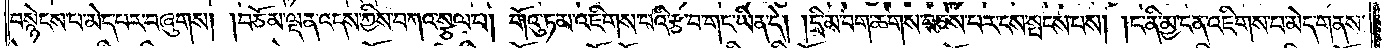བསྙེངས་པ་མེད་པར་བཞུགས། །བཅོམ་ལྡན་འདས་ཀྱིས་བཀའ་སྩལ་པ། གོའུ་ཏམ་འཇིགས་པའི་རྩ་བ་གང་ཡིན་དེ། དྲི་མ་བག་ཆགས་བཅས་པར་ངས་སྤངས་པས། ང་ནི་མྱ་ངན་འཇིགས་པ་མེད་གནས་
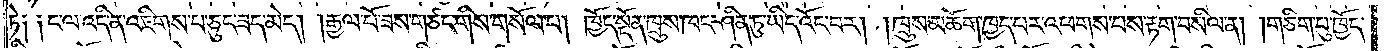ཏེ༑ ༑ང་ལ་འདི་ན་འཇིགས་པ་ཅུང་ཟད་མེད། །རྒྱལ་པོ་ཟས་གཙང་གིས་གསོལ་བ། ཁྱོད་སྔོན་ཁྲུས་ཁང་ཤིན་ཏུ་ཡིད་འོང་བར། །ཁྲུས་མཆོག་ཁྱད་པར་འཕགས་པས་རྟག་བསིལ་ན། གཅིག་པུ་ཁྱོད་
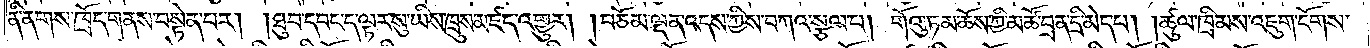ནི་ནགས་ཁྲོད་གནས་བསྟེན་པར། །ཐུབ་དབང་ད་ལྟར་སུ་ཡིས་ཁྲུས་མཛད་འགྱུར། །བཅོམ་ལྡན་འདས་ཀྱིས་བཀའ་སྩལ་པ། གོའུ་ཏམ་ཆོས་ཀྱི་མཚོ་བྲན་དྲི་མེད་པ། །ཚུལ་ཁྲིམས་འཇུག་ངོགས་
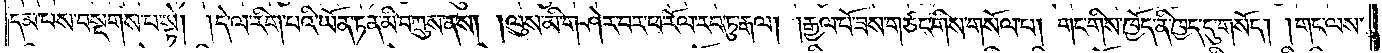དམ་པས་བསྔགས་པ་སྟེ། དེ་ལ་རིག་པའི་ཡོན་ཏན་མི་བཀྲུས་ནས། །ལུས་མི་གཤེར་བར་ཕ་རོལ་རབ་ཏུ་རྒལ། །རྒྱལ་པོ་ཟས་གཙང་གིས་གསོལ་བ། གང་གིས་ཁྱོད་ནི་ཁྱད་དུ་གསོད། །གང་ལས་
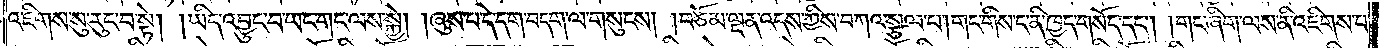འཇིགས་སུ་རུང་བ་སྟེ། །ཡིད་འབྱུང་བ་ཡང་གང་ལས་སྐྱེ། །ཞུས་པ་དེ་དག་བདག་ལ་གསུངས། །བཅོམ་ལྡན་འདས་ཀྱིས་བཀའ་སྩལ་པ། །གང་གིས་ང་ནི་ཁྱད་གསོད་དང༌། གང་ཞིག་ལས་ནི་འཇིགས་པ་
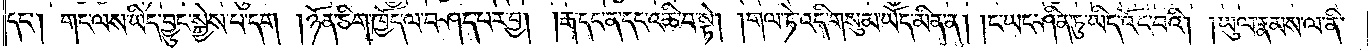དང༌། གང་ལས་ཡིད་བྱུང་སྐྱེས་པ་དག །ཉོན་ཅིག་ཁྱོད་ལ་བཤད་པར་བྱ། །རྒ་དང་ན་དང་འཆི་བ་སྟེ། །གལ་ཏེ་འདི་གསུམ་ཡོད་མིན་ན། །ང་ཡང་ཤིན་ཏུ་ཡིད་འོང་བའི། །ཡུལ་རྣམས་ལ་ནི་
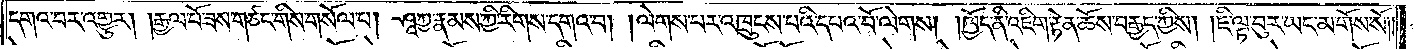དགའ་བར་འགྱུར། །རྒྱལ་པོ་ཟས་གཙང་གིས་གསོལ་པ། ཤཱཀྱ་རྣམས་ཀྱི་རིགས་དགའ་བ། །ལེགས་པར་འཁྲུངས་པའི་དཔའ་བོ་ལེགས། །ཁྱོད་ནི་འཇིག་རྟེན་ཆོས་བརྒྱད་ཀྱིས། །ཇི་ལྟ་བུར་ཡང་མ་གོས་སོ། །
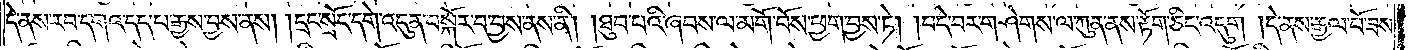དེ་ནས་རབ་དགའ་དད་པ་རྒྱས་བྱས་ནས། །དྲང་སྲོང་དགེ་འདུན་བསྐོར་བ་བྱས་ནས་ནི། །ཐུབ་པའི་ཞབས་ལ་མགོ་བོས་ཕྱག་བྱས་ཏེ། །བདེ་བར་གཤེགས་ལ་ཀུན་ནས་རྟོག་ཅིང་འདུག །དེ་ནས་རྒྱལ་པོ་ཟས་
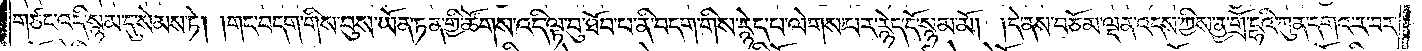གཙང་འདི་སྙམ་དུ་སེམས་ཏེ། །གང་བདག་གིས་བུས་ཡོན་ཏན་གྱི་ཚོགས་འདི་ལྟ་བུ་ཐོབ་པ་ནི་བདག་གིས་རྙེད་པ་ལེགས་པར་རྙེད་དོ་སྙམ་མོ། །དེ་ནས་བཅོམ་ལྡན་འདས་ཀྱིས་ནྱ་གྲོ་དྷའི་ཀུན་དགའ་ར་བར་
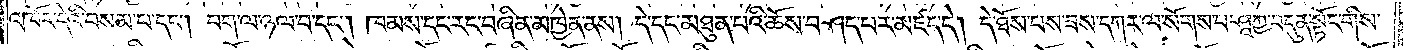འཁོར་དེའི་བསམ་པ་དང༌། བག་ལ་ཉལ་བ་དང༌། ཁམས་དང་རང་བཞིན་མཁྱེན་ནས། དེ་དང་མཐུན་པའི་ཆོས་བཤད་པར་མཛད་དེ། དེ་ཐོས་པས་ཟད་དཀར་ལ་སོགས་པ་ཤཱཀྱ་བདུན་སྟོང་གིས་
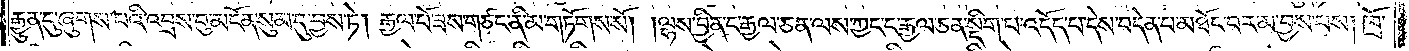རྒྱུན་དུ་ཞུགས་པའི་འབྲས་བུ་མངོན་སུམ་དུ་བྱས་ཏེ། རྒྱལ་པོ་ཟས་གཙང་ནི་མ་གཏོགས་སོ། །ལྷས་བྱིན་ང་རྒྱལ་ཅན་ལས་ཀྱང་ང་རྒྱལ་ཅན་སྡིག་པ་འདོད་པ་དེས་བདེན་པ་མཐོང་བར་མ་བྱས་པས། །ཁྲོ་
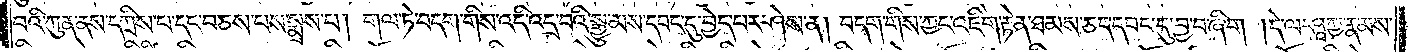བའི་ཀུན་ནས་དཀྲིས་པ་དང་བཅས་པས་སྨྲས་པ། གལ་ཏེ་བདག་གིས་འདི་འདྲའི་སྒྱུ་མས་དབང་དུ་བྱེད་པར་ཤེས་ན། །བདག་གིས་ཀྱང་འཇིག་རྟེན་ཐམས་ཅད་དབང་དུ་བྱ་བ་ཞིག། །དེ་ལ་ཤཱཀྱ་རྣམས་
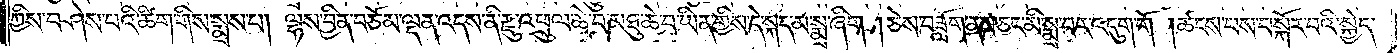ཀྱིས་བཤེས་པའི་ཚིག་གིས་སྨྲས་པ། །ལྷས་བྱིན་བཅོམ་ལྡན་འདས་ནི་རྫུ་འཕྲུལ་ཆེ་བ་མཐུ་ཆེ་བ་ཡིན་གྱིས་དེ་སྐད་མ་སྨྲ་ཞིག །ཅེས་བཟློག་ནས་ཅང་མི་སྨྲ་བར་འཇུག་གོ། །ཚངས་པར་བསྐོར་བའི་སྐྱེད་
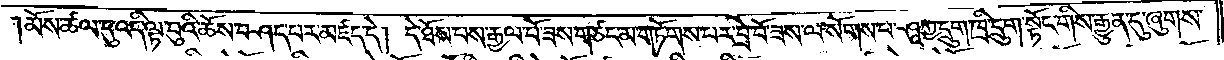མོས་ཚལ་དུ་འདི་ལྟ་བུའི་ཆོས་བཤད་པར་མཛད་དེ། དེ་ཐོས་པས་རྒྱལ་པོ་ཟས་གཙང་མ་གཏོགས་པར་བྲེ་བོ་ཟས་ལ་སོགས་པ་ཤཱཀྱ་དྲུག་ཁྲི་དྲུག་སྟོང་གིས་རྒྱུན་དུ་ཞུགས་
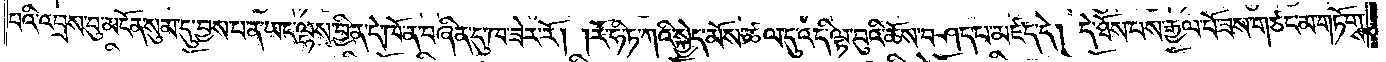པའི་འབྲས་བུ་མངོན་སུམ་དུ་བྱས་པ་ན་ཡང་ལྷས་བྱིན་དེ་ཁོ་ན་བཞིན་དུ་ཁ་ཟེར་རོ། །རོ་ཧི་ཏ་ཀའི་སྐྱེད་མོས་ཚལ་དུ་འདི་ལྟ་བུའི་ཆོས་བཤད་པ་མཛད་དེ། དེ་ཐོས་པས་རྒྱལ་པོ་ཟས་གཙང་མ་གཏོགས་
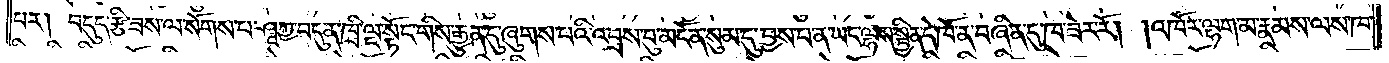པར། །བདུད་རྩི་ཟས་ལ་སོགས་པ་ཤཱཀྱ་བདུན་ཁྲི་ལྔ་སྟོང་གིས་རྒྱུན་དུ་ཞུགས་པའི་འབྲས་བུ་མངོན་སུམ་དུ་བྱས་པ་ན་ཡང་ལྷས་སྦྱིན་དང་དེ་ཁོ་ན་བཞིན་དུ་ཁ་ཟེར་རོ། །འཁོར་ལྷག་མ་རྣམས་ལས་ཁ་
